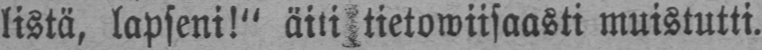listä, lapseni!" äiti tietowiisaasti muistutti.
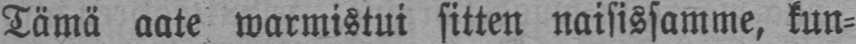Tämä aate warmistui sitten naisissamme, kun-
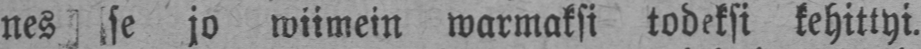nes se jo wiimein warmaksi todeksi kehittyi.
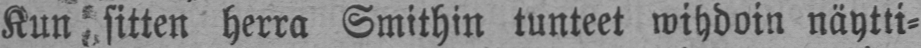Kun sitten herra Smithin tunteet wihdoin näytti-
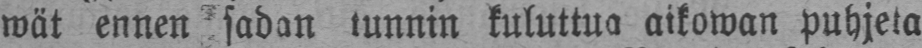wät ennen sadan tunnin kuluttua aikowan puhjeta
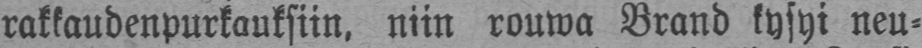rakkaudenpurkauksiin, niin rouwa Brand kysyi neu-
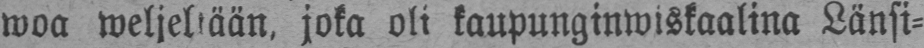woa weljeltään, joka oli kaupunginwiskaalina Länsi-
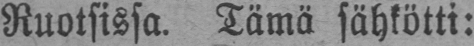Ruotsissa. Tämä sähkötti:
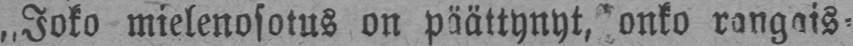„Joko mielenosotus on päättynyt, onko rangais-
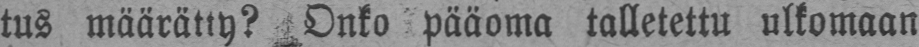tus määrätty? Onko pääoma talletettu ulkomaan
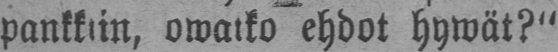pankkiin, owatko ehdot hywät?"
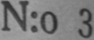N:o 3
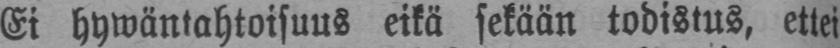Ei hywäntahtoisuus eikä sekään todistus, ettei
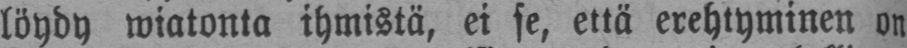löydy wiatonta ihmistä, ei se, että erehtyminen on
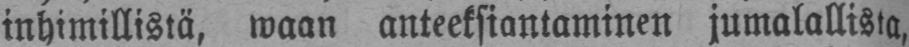inhimillistä, waan anteeksiantaminen jumalallista,
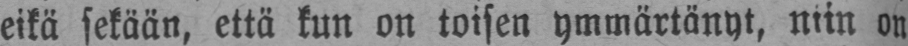eikä sekään, että kun on toisen ymmärtänyt, niin on
